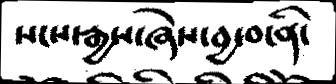སངས་རྒྱས་ཞེས་བྱ་བ་ནི་
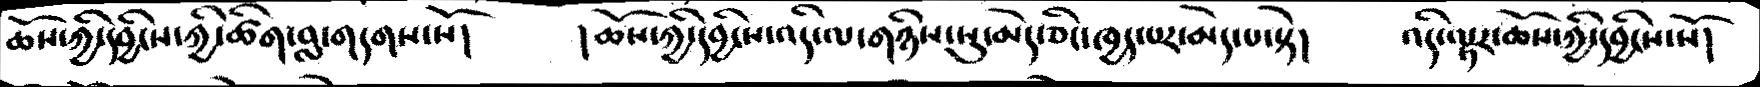ཆོས་ཀྱི་དབྱིངས་ཀྱི་ཚིག་བླ་གདགས་སོ།    །ཆོས་ཀྱི་དབྱིངས་འདི་ལ་གཉིས་སུ་མེད་ཅིང་ཁྱད་པར་མེད་པ་སྟེ།   འདི་ལྟར་ཆོས་ཀྱི་དབྱིངས་སོ།
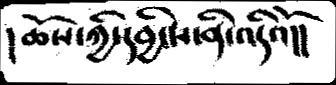།ཆོས་ཀྱི་དབྱིངས་ནི་འདིའོ།།
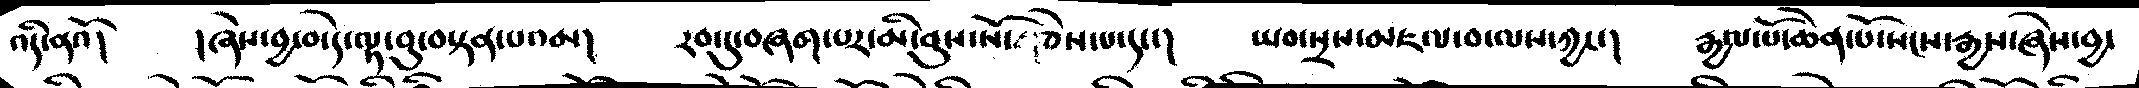འདི་ནའོ།   །ཞེས་བྱ་བ་དེ་ལྟ་བུ་བསྟན་པའམ།   རབ་དུ་བཞག་པར་མི་ནུས་སོ་ ཅེས་པ་དང་།   ཡབ་སྲས་མཇལ་བ་ལས་ཀྱང་།   རྒྱལ་པོ་ཆེན་པོ་སངས་རྒྱས་ཞེས་བྱ་
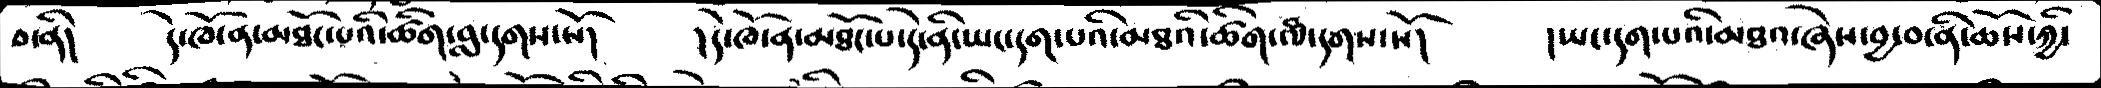བ་ནི།  དེ་ཁོ་ན་མཐོང་པའི་ཚིག་བླ་དགས་སོ།   །དེ་ཁོ་ན་མཐོང་པ་དེ་ནི་ཡང་དག་པའི་མཐའི་ཚིག་བླ་དགས་སོ།         །ཡང་དག་པའི་མཐའ་ཞེས་བྱ་བ་ནི་ཆོས་ཀྱི་
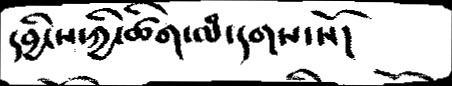དབྱིངས་ཀྱི་ཚིག་བླ་དགས་སོ།
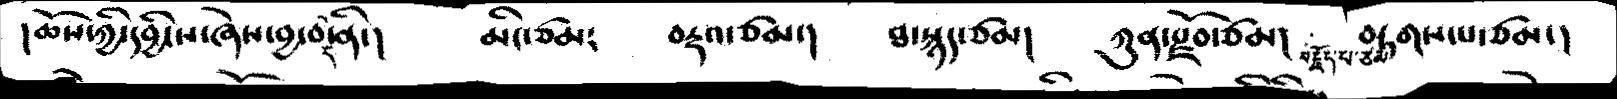། ཆོས་ཀྱི་དབྱིངས་ཞེས་བྱ་བ་དེ་ནི་།    མིང་ཙམ༴   བརྡའ་ཙམ་།      ཐ་སྙད་ཙམ།    ཀུན་རྫོབ་ཙམ།   བརྗོད་པ་ཙམ་  བཏགས་པ་ཙམ་།
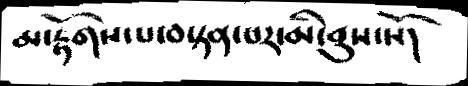མ་རྟོགས་པ་བསྟན་པར་མི་ནུས་སོ།
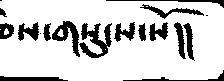ཅེས་གསུངས་སོ།།
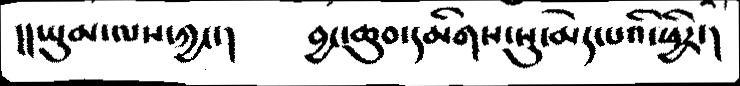།། ཡུམ་ལས་ཀྱང་།         བྱང་ཆུབ་དམིགས་སུ་མེད་པའི་ཕྱིར་།
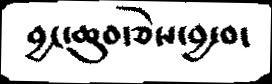བྱང་ཆུབ་ཅེས་བྱ་བ་
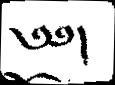༄༅།
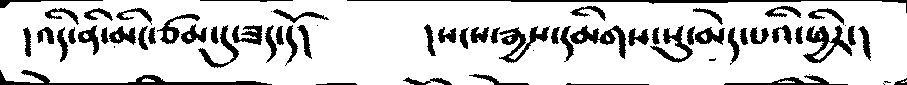།འདི་ནི་མིང་ཙམ་དུ་ཟད་དོ།              །སངས་རྒྱས་དམིགས་སུ་མེད་པའི་ཕྱིར་།
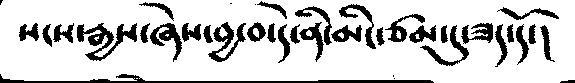སངས་རྒྱས་ཞེས་བྱ་བ་དེ་ནི་མིང་ཙམ་དུ་ཟད་དོ་།
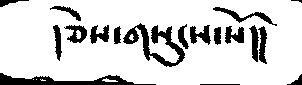།ཅེས་གསུངས་སོ།།
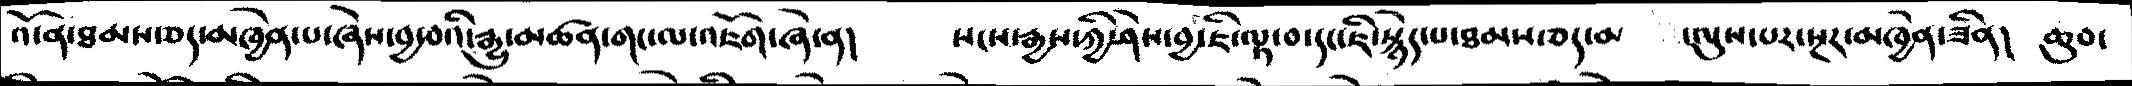འོ་ན་ཐམས་ཅད་མཁྱེན་པ་ཞེས་བྱ་བའི་རྒྱུ་མཚན་གང་ལ་འཇོག་ཞེ་ན།   སངས་རྒྱས་ཀྱི་ཤེས་བྱ་ཇི་ལྟ་བ་དང་ཇི་སྙེད་པ་ཐམས་ཅད་མ   ་ལུས་པར་སྔར་མཁྱེན་ཟིན།  ཆུབ་
